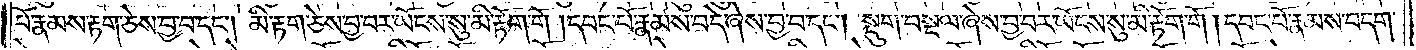པོ་རྣམས་རྟག་ཅེས་བྱ་བ་དང༌། མི་རྟག་ཅེས་བྱ་བར་ཡོངས་སུ་མི་རྟོག་གོ །དབང་པོ་རྣམས་བདེ་ཞེས་བྱ་བ་དང༌། སྡུག་བསྔལ་ཞེས་བྱ་བར་ཡོངས་སུ་མི་རྟོག་གོ ། དབང་པོ་རྣམས་བདག་
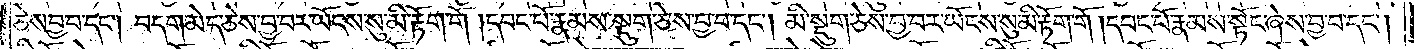ཅེས་བྱ་བ་དང༌། བདག་མེད་ཅེས་བྱ་བར་ཡོངས་སུ་མི་རྟོག་གོ །དབང་པོ་རྣམས་སྡུག་ཅེས་བྱ་བ་དང༌། མི་སྡུག་ཅེས་བྱ་བར་ཡོངས་སུ་མི་རྟོག་གོ །དབང་པོ་རྣམས་སྟོང་ཞེས་བྱ་བ་དང༌།
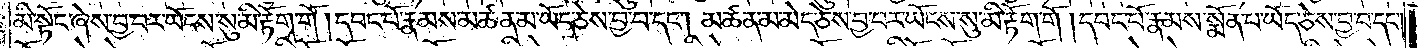མི་སྟོང་ཞེས་བྱ་བར་ཡོངས་སུ་མི་རྟོག་གོ །དབང་པོ་རྣམས་མཚན་མ་ཡོད་ཅེས་བྱ་བ་དང༌། མཚན་མ་མེད་ཅེས་བྱ་བར་ཡོངས་སུ་མི་རྟོག་གོ །དབང་པོ་རྣམས་སྨོན་པ་ཡོད་ཅེས་བྱ་བ་དང༌།
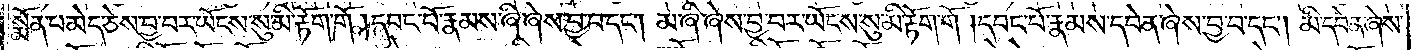སྨོན་པ་མེད་ཅེས་བྱ་བར་ཡོངས་སུ་མི་རྟོག་གོ །དབང་པོ་རྣམས་ཞི་ཞེས་བྱ་བ་དང༌། མ་ཞི་ཞེས་བྱ་བར་ཡོངས་སུ་མི་རྟོག་གོ །དབང་པོ་རྣམས་དབེན་ཞེས་བྱ་བ་དང༌། མི་དབེན་ཞེས་
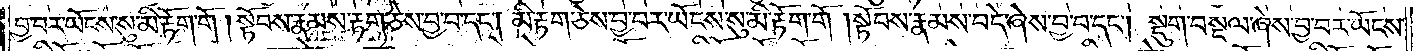བྱ་བར་ཡོངས་སུ་མི་རྟོག་གོ །སྟོབས་རྣམས་རྟག་ཅེས་བྱ་བ་དང༌། མི་རྟག་ཅེས་བྱ་བར་ཡོངས་སུ་མི་རྟོག་གོ །སྟོབས་རྣམས་བདེ་ཞེས་བྱ་བ་དང༌། སྡུག་བསྔལ་ཞེས་བྱ་བར་ཡོངས་
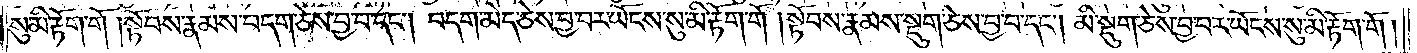སུ་མི་རྟོག་གོ །སྟོབས་རྣམས་བདག་ཅེས་བྱ་བ་དང༌། བདག་མེད་ཅེས་བྱ་བར་ཡོངས་སུ་མི་རྟོག་གོ །སྟོབས་རྣམས་སྡུག་ཅེས་བྱ་བ་དང༌། མི་སྡུག་ཅེས་བྱ་བར་ཡོངས་སུ་མི་རྟོག་གོ །
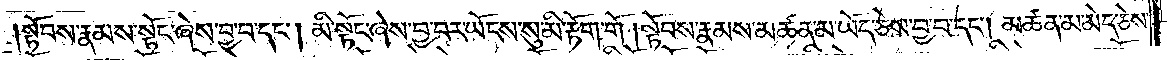སྟོབས་རྣམས་སྟོང་ཞེས་བྱ་བ་དང༌། མི་སྟོང་ཞེས་བྱ་བར་ཡོངས་སུ་མི་རྟོག་གོ །སྟོབས་རྣམས་མཚན་མ་ཡོད་ཅེས་བྱ་བ་དང༌། མཚན་མ་མེད་ཅེས་
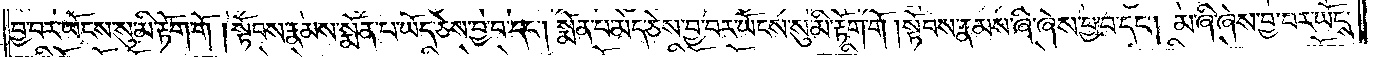བྱ་བར་ཡོངས་སུ་མི་རྟོག་གོ །སྟོབས་རྣམས་སྨོན་པ་ཡོད་ཅེས་བྱ་བ་དང༌། སྨོན་པ་མེད་ཅེས་བྱ་བར་ཡོངས་སུ་མི་རྟོག་གོ །སྟོབས་རྣམས་ཞི་ཞེས་བྱ་བ་དང༌། མ་ཞི་ཞེས་བྱ་བར་ཡོངས་
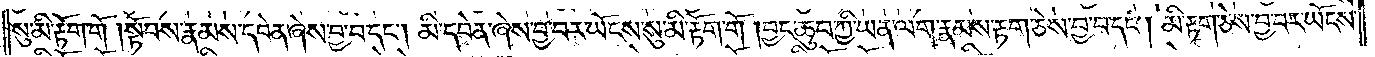སུ་མི་རྟོག་གོ །སྟོབས་རྣམས་དབེན་ཞེས་བྱ་བ་དང༌། མི་དབེན་ཞེས་བྱ་བར་ཡོངས་སུ་མི་རྟོག་གོ །བྱང་ཆུབ་ཀྱི་ཡན་ལག་རྣམས་རྟག་ཅེས་བྱ་བ་དང༌། མི་རྟག་ཅེས་བྱ་བར་ཡོངས་
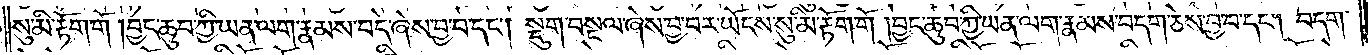སུ་མི་རྟོག་གོ །བྱང་ཆུབ་ཀྱི་ཡན་ལག་རྣམས་བདེ་ཞེས་བྱ་བ་དང༌། སྡུག་བསྔལ་ཞེས་བྱ་བར་ཡོངས་སུ་མི་རྟོག་གོ །བྱང་ཆུབ་ཀྱི་ཡན་ལག་རྣམས་བདག་ཅེས་བྱ་བ་དང༌། བདག་
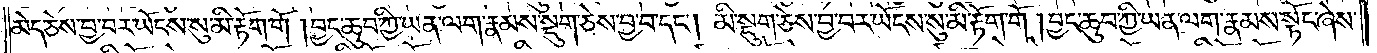མེད་ཅེས་བྱ་བར་ཡོངས་སུ་མི་རྟོག་གོ །བྱང་ཆུབ་ཀྱི་ཡན་ལག་རྣམས་སྡུག་ཅེས་བྱ་བ་དང༌། མི་སྡུག་ཅེས་བྱ་བར་ཡོངས་སུ་མི་རྟོག་གོ །བྱང་ཆུབ་ཀྱི་ཡན་ལག་རྣམས་སྟོང་ཞེས་
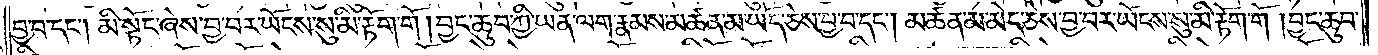བྱ་བ་དང༌། མི་སྟོང་ཞེས་བྱ་བར་ཡོངས་སུ་མི་རྟོག་གོ །བྱང་ཆུབ་ཀྱི་ཡན་ལག་རྣམས་མཚན་མ་ཡོད་ཅེས་བྱ་བ་དང༌། མཚན་མ་མེད་ཅེས་བྱ་བར་ཡོངས་སུ་མི་རྟོག་གོ །བྱང་ཆུབ་
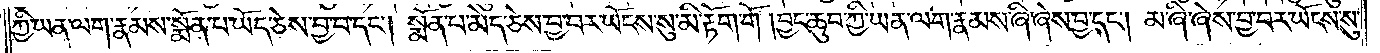ཀྱི་ཡན་ལག་རྣམས་སྨོན་པ་ཡོད་ཅེས་བྱ་བ་དང༌། སྨོན་པ་མེད་ཅེས་བྱ་བར་ཡོངས་སུ་མི་རྟོག་གོ །བྱང་ཆུབ་ཀྱི་ཡན་ལག་རྣམས་ཞི་ཞེས་བྱ་བ་དང༌། མ་ཞི་ཞེས་བྱ་བར་ཡོངས་སུ་
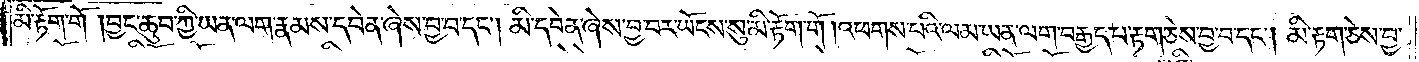མི་རྟོག་གོ །བྱང་ཆུབ་ཀྱི་ཡན་ལག་རྣམས་དབེན་ཞེས་བྱ་བ་དང༌། མི་དབེན་ཞེས་བྱ་བར་ཡོངས་སུ་མི་རྟོག་གོ །འཕགས་པའི་ལམ་ཡན་ལག་བརྒྱད་པ་རྟག་ཅེས་བྱ་བ་དང༌། མི་རྟག་ཅེས་བྱ་
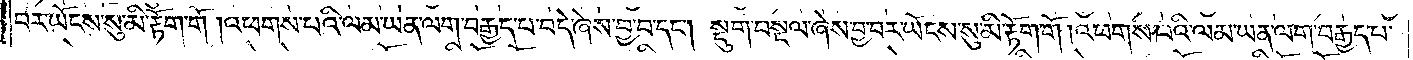བར་ཡོངས་སུ་མི་རྟོག་གོ །འཕགས་པའི་ལམ་ཡན་ལག་བརྒྱད་པ་བདེ་ཞེས་བྱ་བ་དང༌། སྡུག་བསྔལ་ཞེས་བྱ་བར་ཡོངས་སུ་མི་རྟོག་གོ །འཕགས་པའི་ལམ་ཡན་ལག་བརྒྱད་པ་
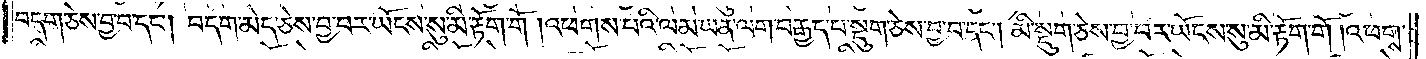བདག་ཅེས་བྱ་བ་དང༌། བདག་མེད་ཅེས་བྱ་བར་ཡོངས་སུ་མི་རྟོག་གོ །འཕགས་པའི་ལམ་ཡན་ལག་བརྒྱད་པ་སྡུག་ཅེས་བྱ་བ་དང༌། མི་སྡུག་ཅེས་བྱ་བར་ཡོངས་སུ་མི་རྟོག་གོ །འཕགས་
